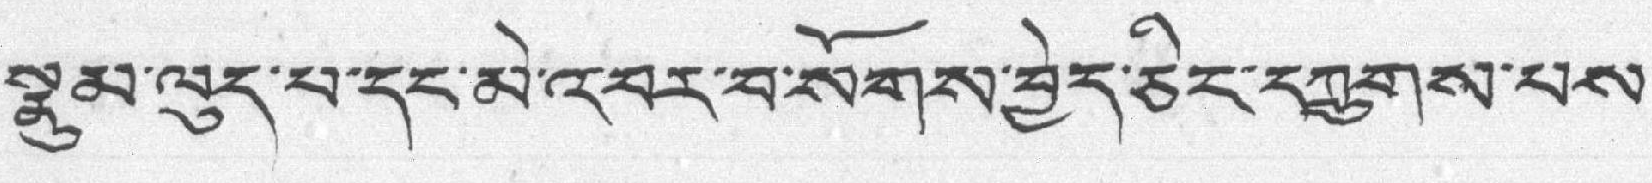སྣུམ་ལུད་པ་དང་མེ་འབར་བ་སོགས་བྱེད་ཅིང་དཀྲུགས་པས་
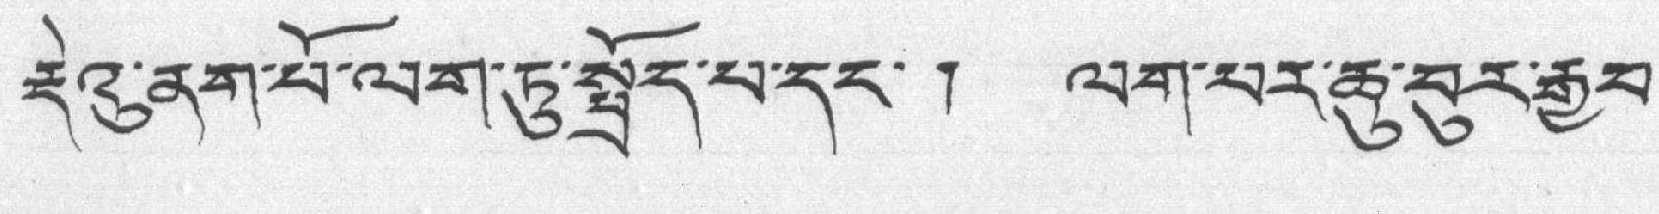རྡེའུ་ནག་པོ་ལག་ཏུ་སྤྲོད་པ་དང་། ལག་པར་ཆུ་བུར་རྒྱབ་
